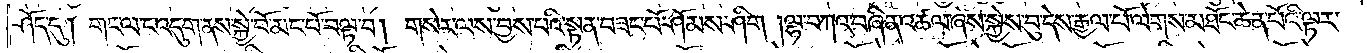ཤོད་དུ། གང་ལ་ང་འདུག་ནས་སྐྱེ་བོ་མང་པོ་བལྟ་བ། གསེར་ལས་བྱས་པའི་སྟན་བཟང་པོ་ཤོམས་ཤིག །ལྷ་བཀའ་བཞིན་འཚལ་ཞེས་སྐྱེས་བུ་དེས་རྒྱལ་པོ་ལེགས་མཐོང་ཆེན་པོའི་ལྟར་
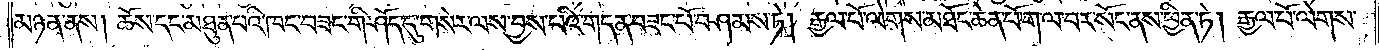མཉན་ནས། ཆོས་དང་མཐུན་པའི་ཁང་བཟང་གི་ཤོད་དུ་གསེར་ལས་བྱས་པའི་གདན་བཟང་པོ་བཤམས་ཏེ། རྒྱལ་པོ་ལེགས་མཐོང་ཆེན་པོ་ག་ལ་བར་སོང་ནས་ཕྱིན་ཏེ། རྒྱལ་པོ་ལེགས་
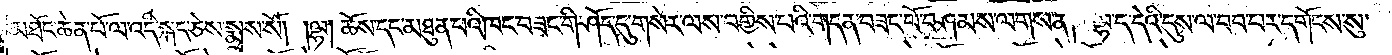མཐོང་ཆེན་པོ་ལ་འདི་སྐད་ཅེས་སྨྲས་སོ། །ལྷ། ཆོས་དང་མཐུན་པའི་ཁང་བཟང་གི་ཤོད་དུ་གསེར་ལས་བགྱིས་པའི་གདན་བཟང་པོ་བཤམས་ལགས་ན། ལྷ་ད་དེའི་དུས་ལ་བབ་པར་དགོངས་སུ་
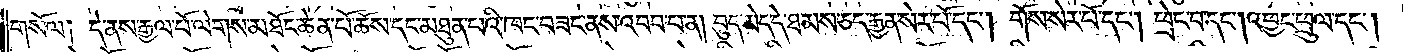གསོལ༑ དེ་ནས་རྒྱལ་པོ་ལེགས་མཐོང་ཆེན་པོ་ཆོས་དང་མཐུན་པའི་ཁང་བཟང་ནས་འབབ་པ་ན། བུད་མེད་དེ་ཐམས་ཅད་རྒྱན་སེར་པོ་དང༌། གོས་སེར་པོ་དང༌། ཕྲེང་བ་དང༌། འཕྱང་ཕྲུལ་དང༌།
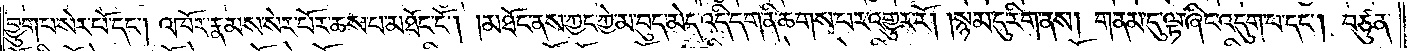བྱུག་པ་སེར་པོ་དང༌། འཁོར་རྣམས་སེར་པོར་ཆས་པ་མཐོང་ངོ༌། །མཐོང་ནས་ཀྱང་ཀྱེ་མ་བུད་མེད་འདི་དག་ནི་ཆགས་པར་འགྱུར་རོ། །སྙམ་དུ་རིག་ནས། གནམ་དུ་ལྟ་ཞིང་འདུག་པ་དང༌། བཙུན་
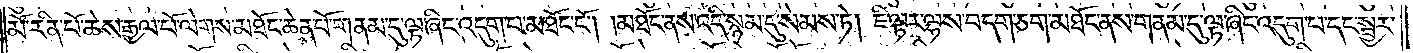མོ་རིན་པོ་ཆེས་རྒྱལ་པོ་ལེགས་མཐོང་ཆེན་པོ་གནམ་དུ་ལྟ་ཞིང་འདུག་པ་མཐོང་ངོ༌། །མཐོང་ནས་འདི་སྙམ་དུ་སེམས་ཏེ། ཇི་ལྟར་ལྷས་བདག་ཅག་མཐོང་ནས་གནམ་དུ་ལྟ་ཞིང་འདུག་པ་དང་སྦྱར་
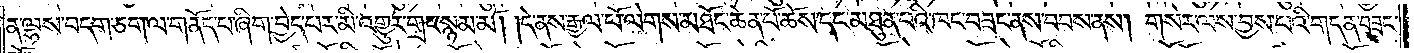ན་ལྷས་བདག་ཅག་ལ་གནོད་པ་ཞིག་བྱེད་པར་མི་འགྱུར་གྲང་སྙམ་མོ། །དེ་ནས་རྒྱལ་པོ་ལེགས་མཐོང་ཆེན་པོ་ཆོས་དང་མཐུན་པའི་ཁང་བཟང་ནས་བབས་ནས། གསེར་ལས་བྱས་པའི་གདན་བཟང་
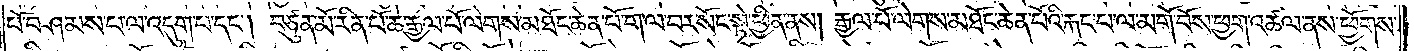པོ་བཤམས་པ་ལ་འདུག་པ་དང༌། བཙུན་མོ་རིན་པོ་ཆེ་རྒྱལ་པོ་ལེགས་མཐོང་ཆེན་པོ་ག་ལ་བར་སོང་སྟེ་ཕྱིན་ནས། རྒྱལ་པོ་ལེགས་མཐོང་ཆེན་པོའི་རྐང་པ་ལ་མགོ་བོས་ཕྱག་འཚལ་ནས་ཕྱོགས་
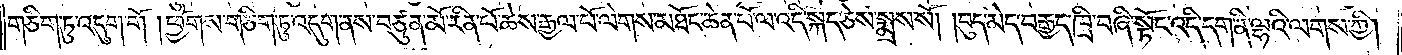གཅིག་ཏུ་འདུག་གོ །ཕྱོགས་གཅིག་ཏུ་འདུག་ནས་བཙུན་མོ་རིན་པོ་ཆེས་རྒྱལ་པོ་ལེགས་མཐོང་ཆེན་པོ་ལ་འདི་སྐད་ཅེས་སྨྲས་སོ། །བུད་མེད་བརྒྱད་ཁྲི་བཞི་སྟོང་འདི་དག་ནི་ལྷའི་ལགས་ཀྱི།
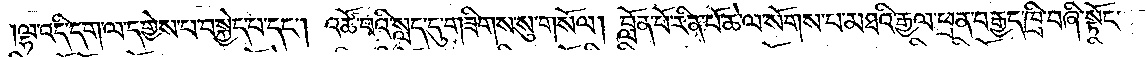ལྷ་འདི་དག་ལ་དགྱེས་པ་བསྐྱེད་པ་དང༌། འཚོ་བའི་སླད་དུ་གཟིགས་སུ་གསོལ། བློན་པོ་རིན་པོ་ཆེ་ལ་སོགས་པ་མཐའི་རྒྱལ་ཕྲན་བརྒྱད་ཁྲི་བཞི་སྟོང་
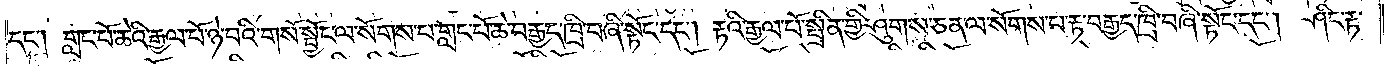དང༌། གླང་པོ་ཆེའི་རྒྱལ་པོ་ཉེ་བའི་གསོ་སྦྱོང་ལ་སོགས་པ་གླང་པོ་ཆེ་བརྒྱད་ཁྲི་བཞི་སྟོང་དང༌། རྟའི་རྒྱལ་པོ་སྤྲིན་གྱི་ཤུགས་ཅན་ལ་སོགས་པ་རྟ་བརྒྱད་ཁྲི་བཞི་སྟོང་དང༌། ཤིང་རྟ་
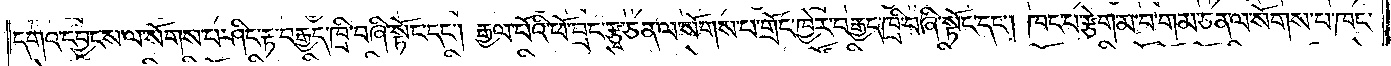དགའ་དབྱངས་ལ་སོགས་པ་ཤིང་རྟ་བརྒྱད་ཁྲི་བཞི་སྟོང་དང༌། རྒྱལ་པོའི་ཕོ་བྲང་རྩྭ་ཅན་ལ་སོགས་པ་གྲོང་ཁྱེར་བརྒྱད་ཁྲི་བཞི་སྟོང་དང༌། ཁང་པ་རྩེག་མ་བ་གམ་ཅན་ལ་སོགས་པ་ཁང་
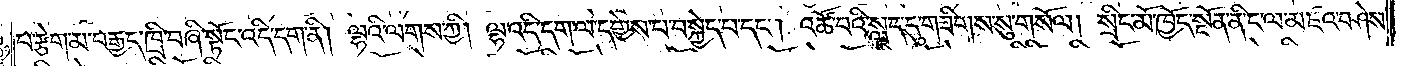པ་རྩེག་མ་བརྒྱད་ཁྲི་བཞི་སྟོང་འདི་དག་ནི། ལྷའི་ལགས་ཀྱི། ལྷ་འདི་དག་ལ་དགྱེས་པ་བསྐྱེད་པ་དང༌། འཚོ་བའི་སླད་དུ་གཟིགས་སུ་གསོལ། སྲིང་མོ་ཁྱོད་སྔོན་ནི་ང་ལ་མཛའ་བཤེས་
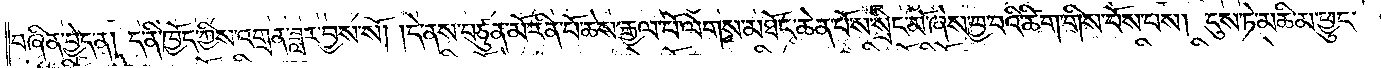བཞིན་བྱེད་ན། ད་ནི་ཁྱོད་ཀྱིས་འགྲན་ཟླར་བྱས་སོ། །དེ་ནས་བཙུན་མོ་རིན་པོ་ཆེས་རྒྱལ་པོ་ལེགས་མཐོང་ཆེན་པོས་སྲིང་མོ་ཞེས་བྱ་བའི་ཚིག་གིས་བོས་པས། དུས་ཏེ་མཆི་མ་ཕྱུང་
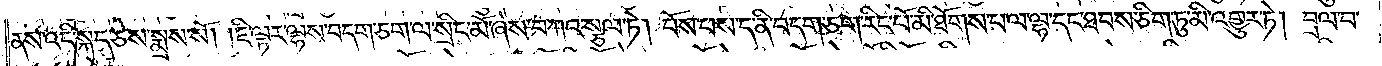ནས་འདི་སྐད་ཅེས་སྨྲས་སོ། །ཇི་ལྟར་ལྷས་བདག་ཅག་ལ་སྲིང་མོ་ཞེས་བཀའ་སྩལ་ཏེ། བོས་པས་ད་ནི་བདག་ཅག་རིང་པོ་མི་ཐོགས་པ་ལ་ལྷ་དང་ཐབས་ཅིག་ཏུ་མི་འགྱུར་ཏེ། བྲལ་བ་
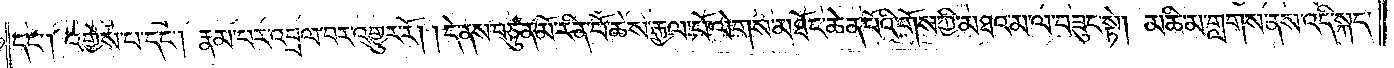དང༌། འགྱེས་པ་དང༌། རྣམ་པར་འབྲལ་བར་འགྱུར་རོ། །དེ་ནས་བཙུན་མོ་རིན་པོ་ཆེས་རྒྱལ་པོ་ལེགས་མཐོང་ཆེན་པོའི་གོས་ཀྱི་མཐའ་མ་ལ་བཟུང་སྟེ། མཆི་མ་གླགས་ནས་འདི་སྐད་
